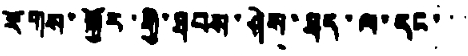རོགས་སྐྱོར་གྱི་ཐབས་ཤེས་ཐད་ལ་དང་་་
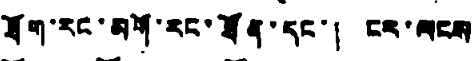ཐོག་རང་མགོ་རང་ཐོན་དང་། ངར་ལངས
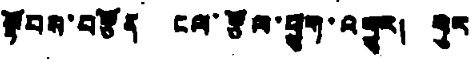སྟོབས་བརྩོན ངལ་རྩོལ་ཕྱུག་འགྱུར། ཧུར
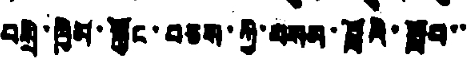བསྲི་ཁྱིམ་སྐྱོང་བཅས་ཀྱི་བསམ་བློའི་སློབ་་
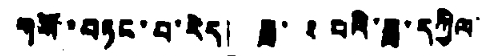གསོ་བཏང་བ་རེད། ཟླ་ ༢ པའི་ཟླ་དཀྱིལ
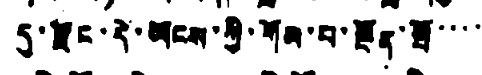དུ་རྫོང་དེ་ཡོངས་ཀྱི་གོམ་པ་སྔོན་སྤོ་་་་
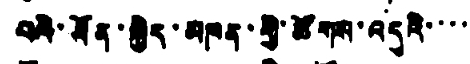པའི་ཐོན་སྐྱེད་མཁན་གྱི་ཚོགས་འདུའི་་་་་
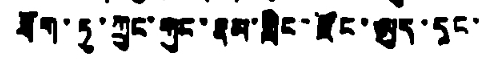ཐོག་ཏུ་ཀྲུང་གུང་རྣམ་གླིང་རྫོང་ཨུད་དང་
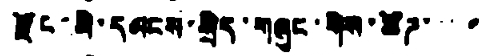རྫོང་མི་དམངས་སྲིད་གཞུང་གིས་ཚོཌ་་་་
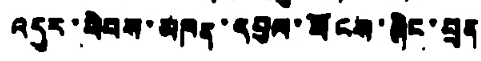འདུར་ཕེབས་མཁན་དབུལ་ཕོངས་ཞིང་བྲན
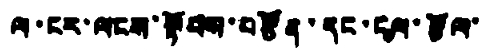ལ་ངར་ལངས་སྟོབས་བརྩོན་དང་ངལ་རྩོལ་
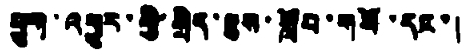ཕྱུག་འགྱུར་གྱི་སྲིད་ཇུས་སློབ་གསོ་དང་།
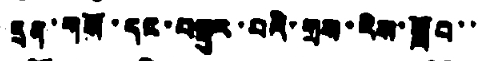དྲན་གསོ་དང་བསྡུར་བའི་གྲས་རིས་སློབ་་
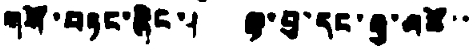གསོ་བཏང་ཞིང་། ལྷ་བུ་དང་རྒྱ་མཚོ་་
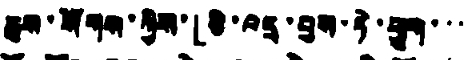ཆུས་སོགས་ཀྱིས་「ཅི་འདྲ་བྱས་ཏེ་ཕྱུག་་་
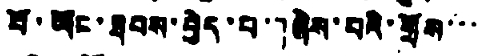པོ་ཡོང་ཐབས་བྱེད་པ་གཞེས་པའི་གྲོས་་་
